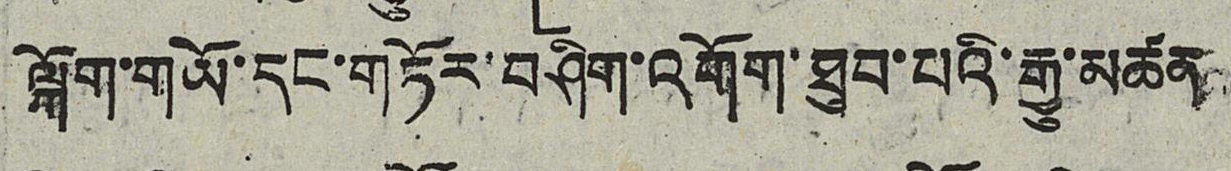ལྐོག་གཡོ་དང་གཏོར་བཤིག་འགོག་ཐུབ་པའི་རྒྱུ་མཚན་
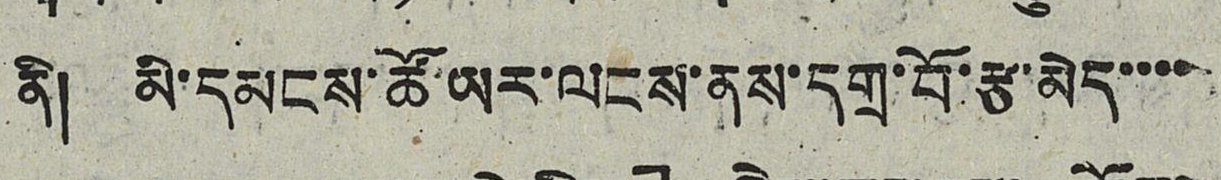ནི། མི་དམངས་ཚོ་ཡར་ལངས་ནས་དགྲ་བོ་རྩ་མེད་་་་
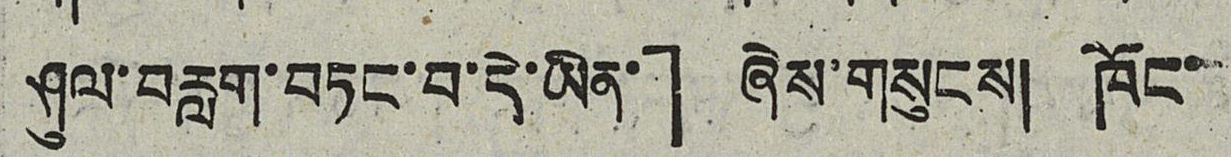ཤུལ་བརླག་བཏང་བ་དེ་ཡིན་」 ཞེས་གསུངས། ཁོང་
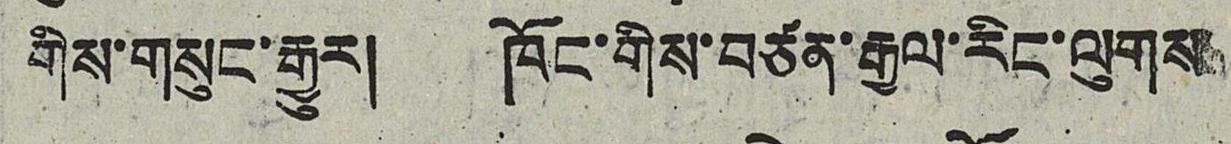གིས་གསུང་རྒྱུར། ཁོང་གིས་བཙན་རྒྱལ་རིང་ལུགས
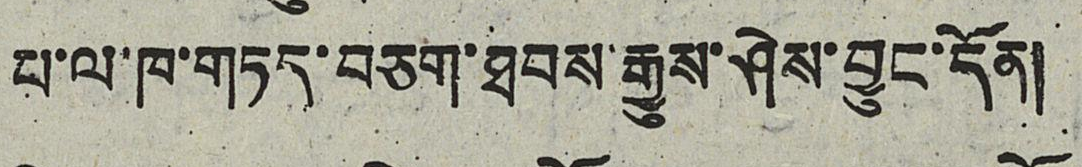པ་ལ་ཁ་གཏད་བཅག་ཐབས་རྒྱུས་ཤེས་བྱུང་དོན།
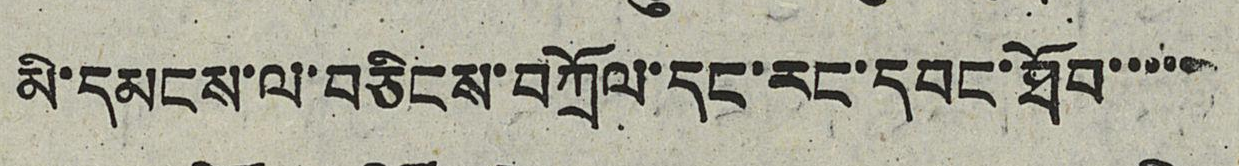མི་དམངས་ལ་བཅིངས་བཀྲོལ་དང་རང་དབང་ཐོབ་་་་་
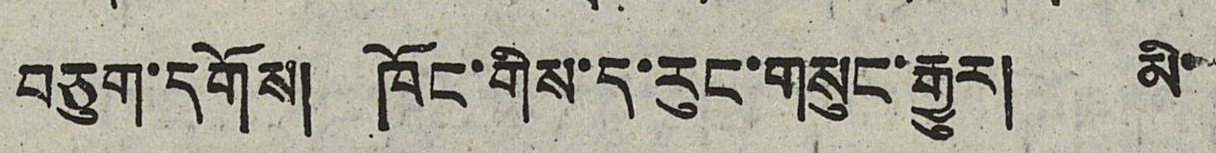བཅུག་དགོས། ཁོང་གིས་ད་རུང་གསུང་རྒྱུར། མི་
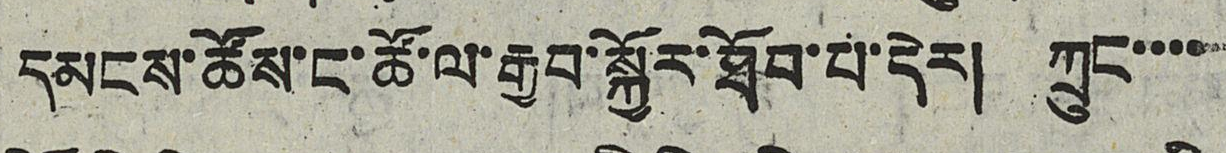དམངས་ཚོས་ང་ཚོ་ལ་རྒྱབ་སྐྱོར་ཐོབ་པ་དེར། ཀྲུང་་་་
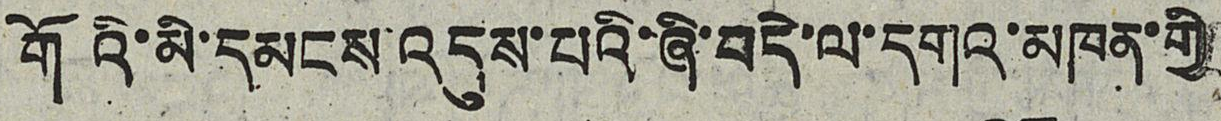གོའི་མི་དམངས་འདུས་པའི་ཞི་བདེ་ལ་དགའ་མཁན་གྱི
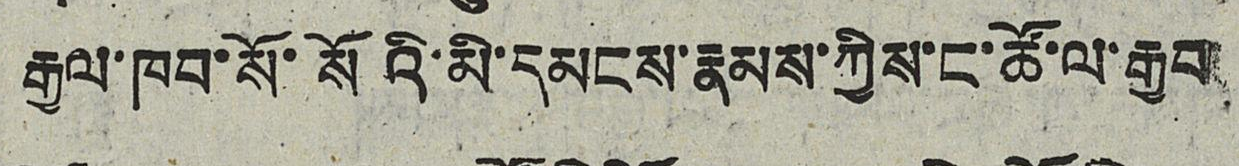རྒྱལ་ཁབ་སོ་སོའི་མི་དམངས་རྣམས་ཀྱིས་ང་ཚོ་ལ་རྒྱབ་
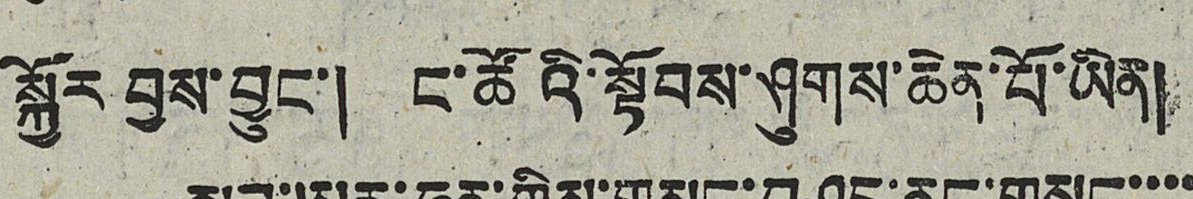སྐྱོར བྱས་བྱུང་། ང་ཚོའི་སྟོབས་ཤུགས་ཆེན་པོ་ཡིན།
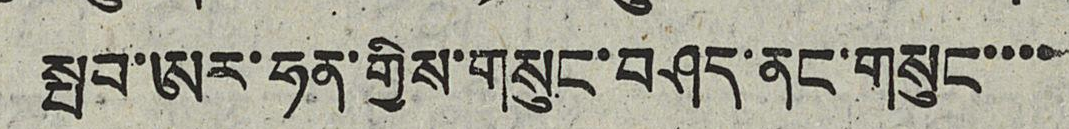སྤབ་ཨར་ཧན་གྱིས་གསུང་བཤད་ནང་གསུང་་་་
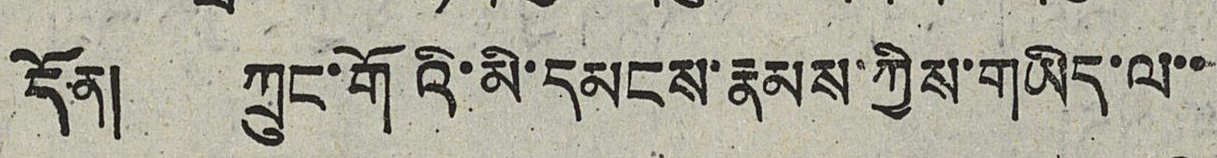དོན། ཀྲུང་གོའི་མི་དམངས་རྣམས་ཀྱིས་གཡིད་ལ་་
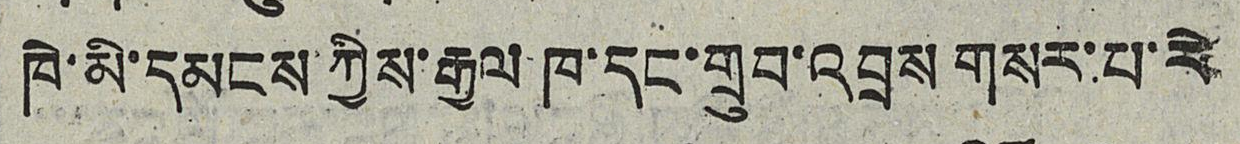ཁེ་མི་དམངས་ཀྱིས་རྒྱལ ཁ་དང་གྲུབ་འབྲས གསར་པ་རེ
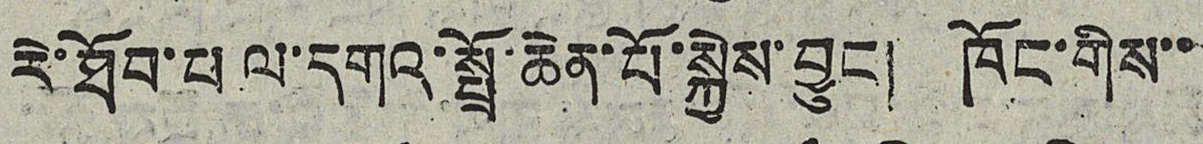རེ་ཐོབ་པ ལ་དགའ་སྤྲོ་ཆེན་པོ་སྐྱེས་བྱུང། ཁོང་གིས་་
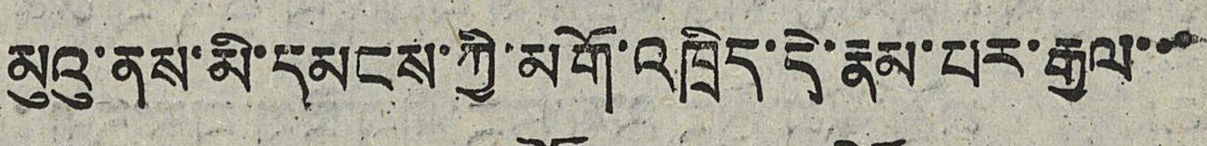མུའུ་ནས་མི་དམངས་ཀྱི་མགོ་འཁྲིད་དེ་རྣམ་པར་རྒྱལ་་་
